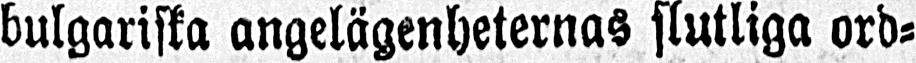bulgariska angelägenheternas slutliga ord-
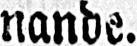nande.
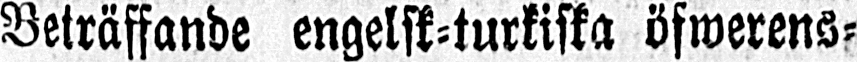Beträffande engelsk-turkiska öfwerens-
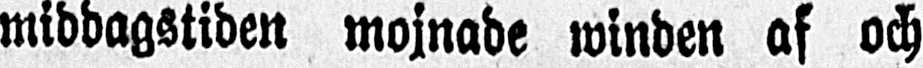middagstiden mojnade winden af och
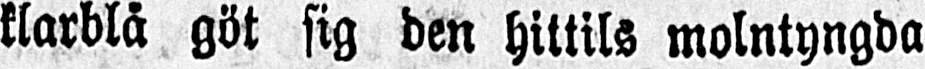klarblå göt sig den hittils molntyngda
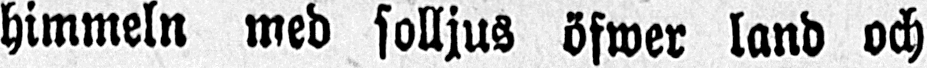himmeln med solljus öfwer land och
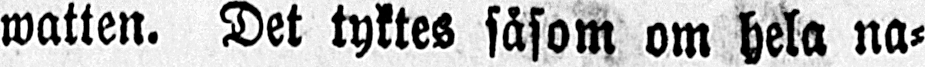watten. Det tyktes såsom om hela na-
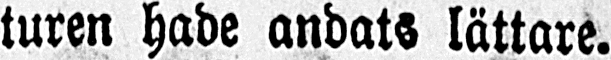turen hade andats lättare.
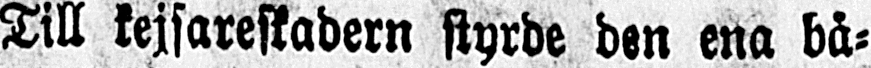Till kejsareskadern styrde den ena bå-
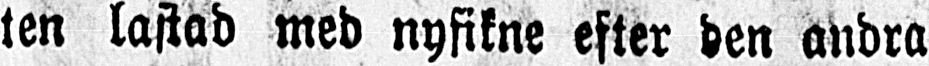ten lastad med nyfikne efter den andra
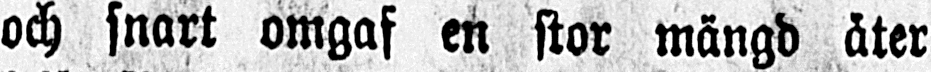och snart omgaf en stor mängd åter
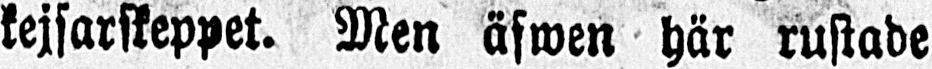kejsarskeppet. Men äfwen här rustade
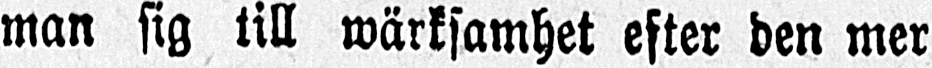man sig till wärksamhet efter den mer
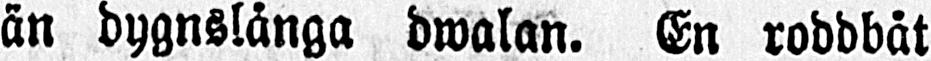än dygnslånga dwalan. En roddbåt
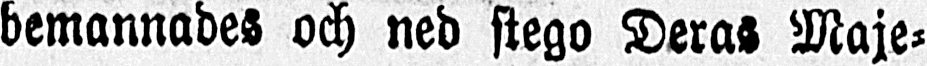bemannades och ned stego Deras Maje-
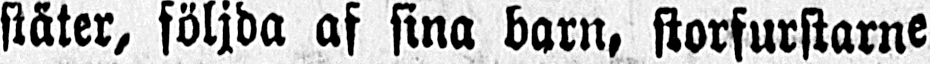stäter, följda af sina barn, storfurstarne
